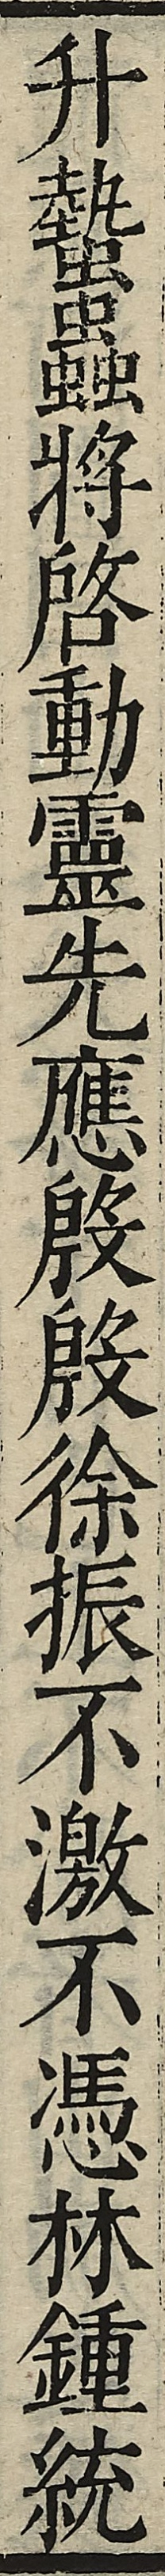升蟄蟲將啟動靈先應殷殷徐振不激不憑林鍾統
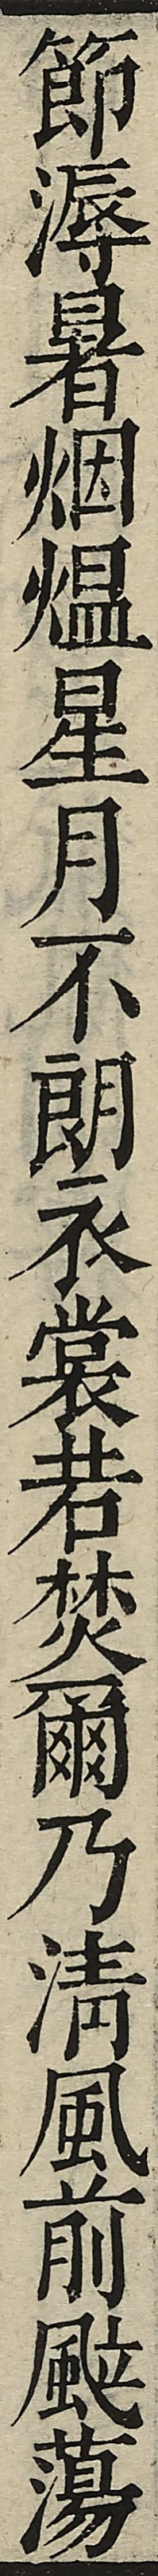節溽暑焑熅星月不朗衣裳若焚爾乃清風前颯蕩
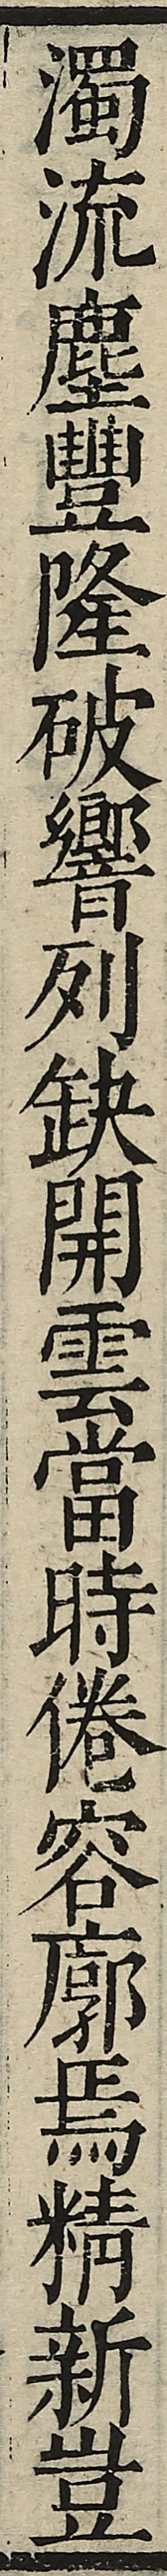濁流塵豐隆破響列缺開雲當時倦容廓焉精新豈
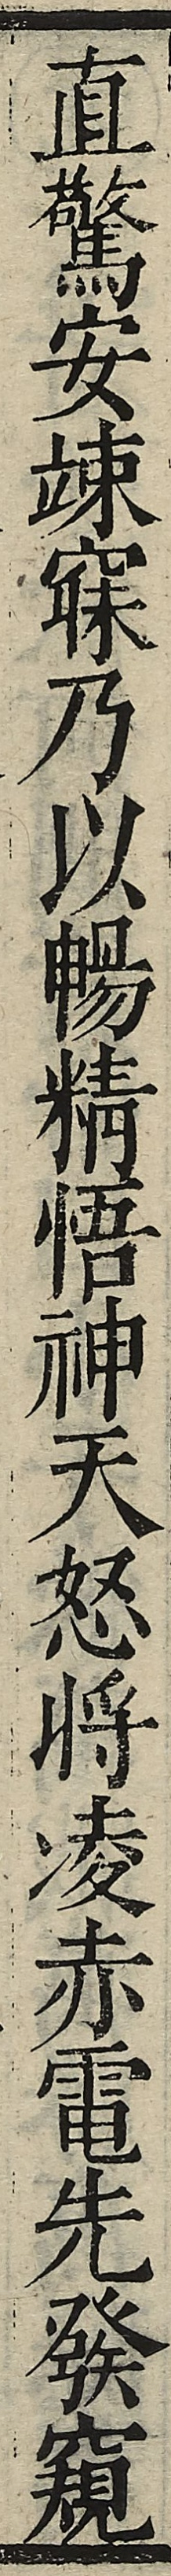直驚安竦寐乃以暢精悟神天怒將凌赤電先發窺
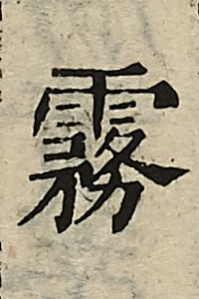霧
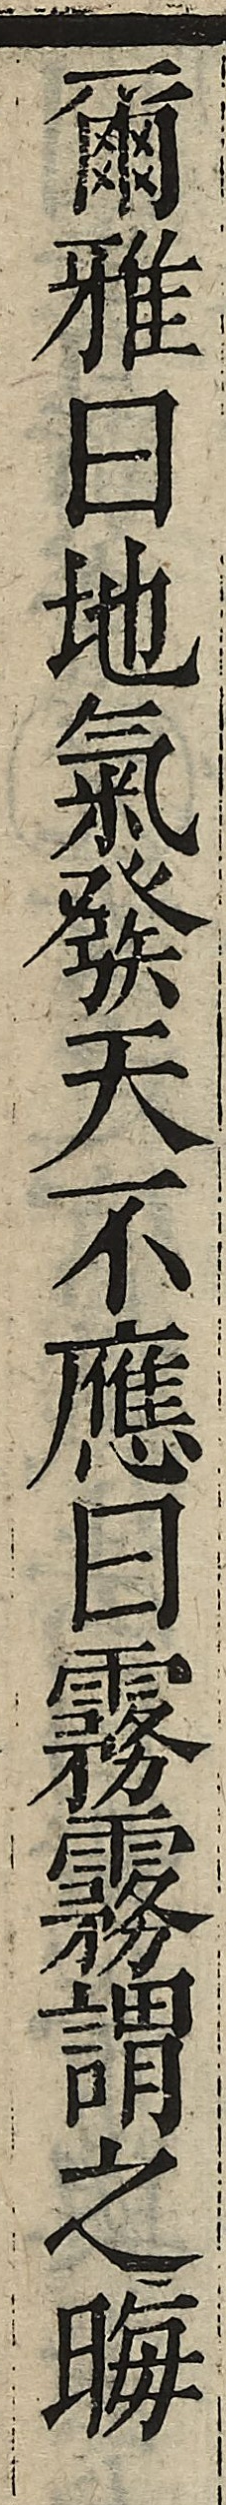爾雅曰地氣發天不應曰霧霧謂之晦
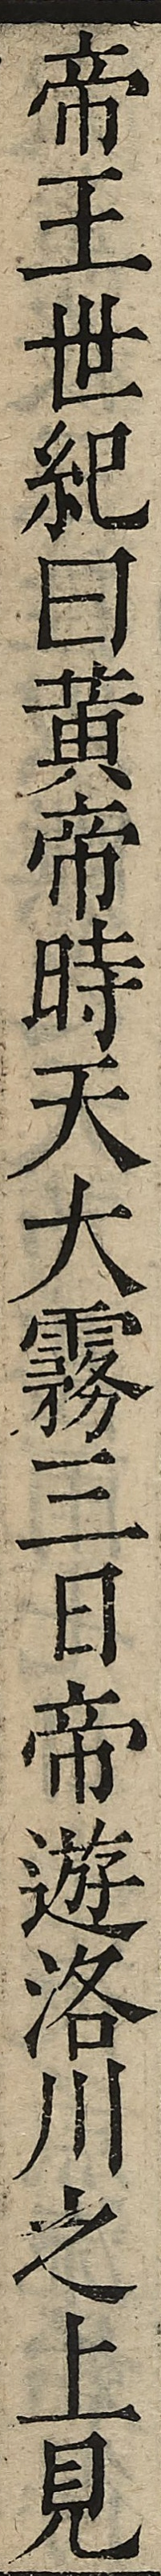帝王世紀曰黃帝時天大霧三日帝遊洛川之上見
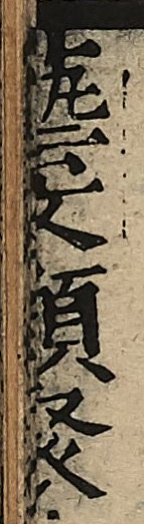藝文類聚
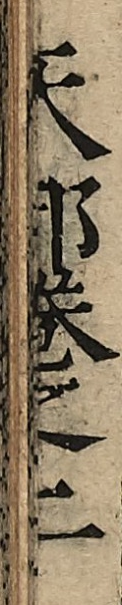天部卷之
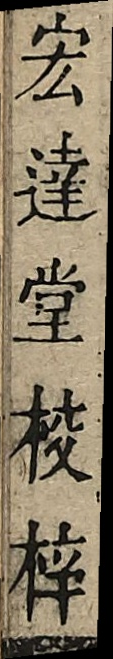宏達堂校梓
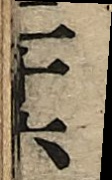二六
